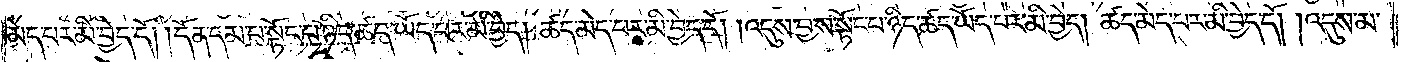མེད་པར་མི་བྱེད་དོ། །དོན་དམ་པ་སྟོང་པ་ཉིད་ཚད་ཡོད་པར་མི་བྱེད། ཚད་མེད་པར་མི་བྱེད་དོ། །འདུས་བྱས་སྟོང་པ་ཉིད་ཚད་ཡོད་པར་མི་བྱེད། ཚད་མེད་པར་མི་བྱེད་དོ། །འདུས་མ་
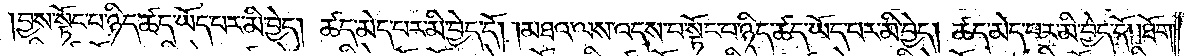བྱས་སྟོང་པ་ཉིད་ཚད་ཡོད་པར་མི་བྱེད། ཚད་མེད་པར་མི་བྱེད་དོ། །མཐའ་ལས་འདས་པ་སྟོང་པ་ཉིད་ཚད་ཡོད་པར་མི་བྱེད། ཚད་མེད་པར་མི་བྱེད་དོ། །ཐོག་
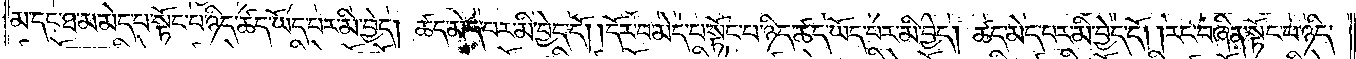མ་དང་ཐ་མ་མེད་པ་སྟོང་པ་ཉིད་ཚད་ཡོད་པར་མི་བྱེད། ཚད་མེད་པར་མི་བྱེད་དོ། །དོར་བ་མེད་པ་སྟོང་པ་ཉིད་ཚད་ཡོད་པར་མི་བྱེད། ཚད་མེད་པར་མི་བྱེད་དོ། །རང་བཞིན་སྟོང་པ་ཉིད་
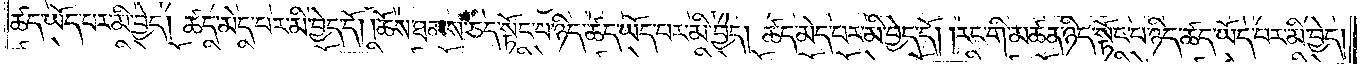ཚད་ཡོད་པར་མི་བྱེད། ཚད་མེད་པར་མི་བྱེད་དོ། །ཆོས་ཐམས་ཅད་སྟོང་པ་ཉིད་ཚད་ཡོད་པར་མི་བྱེད། ཚད་མེད་པར་མི་བྱེད་དོ། །རང་གི་མཚན་ཉིད་སྟོང་པ་ཉིད་ཚད་ཡོད་པར་མི་བྱེད།
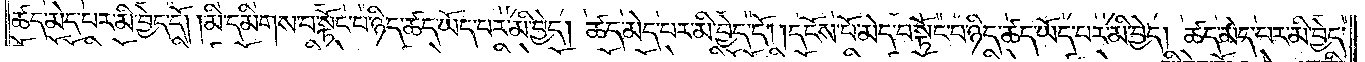ཚད་མེད་པར་མི་བྱེད་དོ། །མི་དམིགས་པ་སྟོང་པ་ཉིད་ཚད་ཡོད་པར་མི་བྱེད། ཚད་མེད་པར་མི་བྱེད་དོ། །དངོས་པོ་མེད་པ་སྟོང་པ་ཉིད་ཚད་ཡོད་པར་མི་བྱེད། ཚད་མེད་པར་མི་བྱེད་
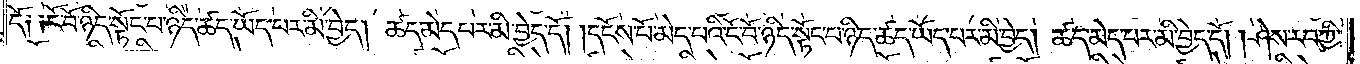དོ༑ ༑ངོ་བོ་ཉིད་སྟོང་པ་ཉིད་ཚད་ཡོད་པར་མི་བྱེད། ཚད་མེད་པར་མི་བྱེད་དོ། །དངོས་པོ་མེད་པའི་ངོ་བོ་ཉིད་སྟོང་པ་ཉིད་ཚད་ཡོད་པར་མི་བྱེད། ཚད་མེད་པར་མི་བྱེད་དོ། །ཤེས་རབ་ཀྱི་
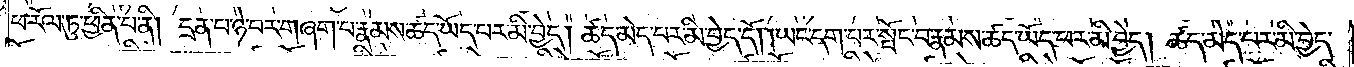ཕ་རོལ་ཏུ་ཕྱིན་པ་ནི། དྲན་པ་ཉེ་བར་གཞག་པ་རྣམས་ཚད་ཡོད་པར་མི་བྱེད། ཚད་མེད་པར་མི་བྱེད་དོ། །ཡང་དག་པར་སྤོང་བ་རྣམས་ཚད་ཡོད་པར་མི་བྱེད། ཚད་མེད་པར་མི་བྱེད་
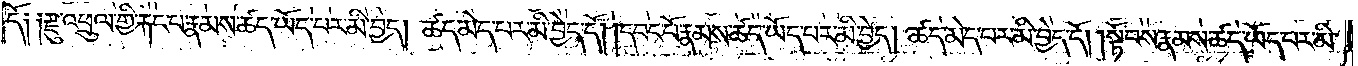དོ༑ ༑རྫུ་འཕྲུལ་གྱི་རྐང་པ་རྣམས་ཚད་ཡོད་པར་མི་བྱེད། ཚད་མེད་པར་མི་བྱེད་དོ། །དབང་པོ་རྣམས་ཚད་ཡོད་པར་མི་བྱེད། ཚད་མེད་པར་མི་བྱེད་དོ། །སྟོབས་རྣམས་ཚད་ཡོད་པར་མི་
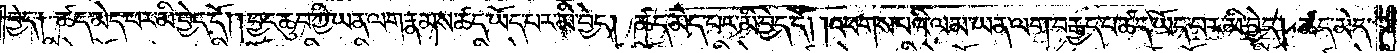བྱེད༑ ཚད་མེད་པར་མི་བྱེད་དོ། །བྱང་ཆུབ་ཀྱི་ཡན་ལག་རྣམས་ཚད་ཡོད་པར་མི་བྱེད། ཚད་མེད་པར་མི་བྱེད་དོ། །འཕགས་པའི་ལམ་ཡན་ལག་བརྒྱད་པ་ཚད་ཡོད་པར་མི་བྱེད། ཚད་མེད་
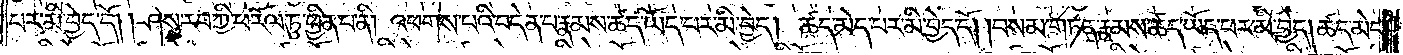པར་མི་བྱེད་དོ། །ཤེས་རབ་ཀྱི་ཕ་རོལ་ཏུ་ཕྱིན་པ་ནི། འཕགས་པའི་བདེན་པ་རྣམས་ཚད་ཡོད་པར་མི་བྱེད། ཚད་མེད་པར་མི་བྱེད་དོ། །བསམ་གཏན་རྣམས་ཚད་ཡོད་པར་མི་བྱེད། ཚད་མེད་
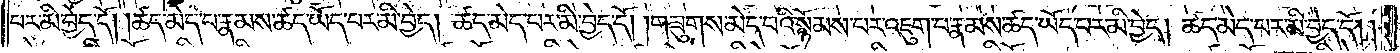པར་མི་བྱེད་དོ། །ཚད་མེད་པ་རྣམས་ཚད་ཡོད་པར་མི་བྱེད། ཚད་མེད་པར་མི་བྱེད་དོ། །གཟུགས་མེད་པའི་སྙོམས་པར་འཇུག་པ་རྣམས་ཚད་ཡོད་པར་མི་བྱེད། ཚད་མེད་པར་མི་བྱེད་དོ། །
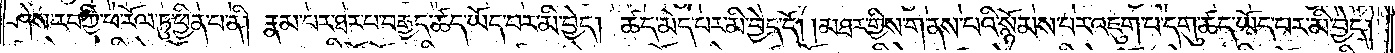ཤེས་རབ་ཀྱི་ཕ་རོལ་ཏུ་ཕྱིན་པ་ནི། རྣམ་པར་ཐར་པ་བརྒྱད་ཚད་ཡོད་པར་མི་བྱེད། ཚད་མེད་པར་མི་བྱེད་དོ། །མཐར་གྱིས་གནས་པའི་སྙོམས་པར་འཇུག་པ་དགུ་ཚད་ཡོད་པར་མི་བྱེད།
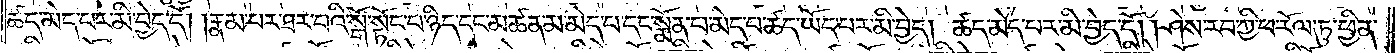ཚད་མེད་པར་མི་བྱེད་དོ། །རྣམ་པར་ཐར་པའི་སྒོ་སྟོང་པ་ཉིད་དང་མཚན་མ་མེད་པ་དང་སྨོན་པ་མེད་པ་ཚད་ཡོད་པར་མི་བྱེད། ཚད་མེད་པར་མི་བྱེད་དོ། །ཤེས་རབ་ཀྱི་ཕ་རོལ་ཏུ་ཕྱིན་
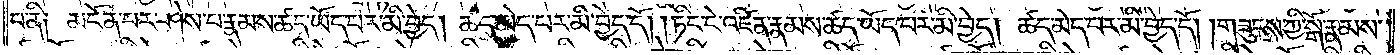པ་ནི༑ མངོན་པར་ཤེས་པ་རྣམས་ཚད་ཡོད་པར་མི་བྱེད། ཚད་མེད་པར་མི་བྱེད་དོ། །ཏིང་ངེ་འཛིན་རྣམས་ཚད་ཡོད་པར་མི་བྱེད། ཚད་མེད་པར་མི་བྱེད་དོ། །གཟུངས་ཀྱི་སྒོ་རྣམས་
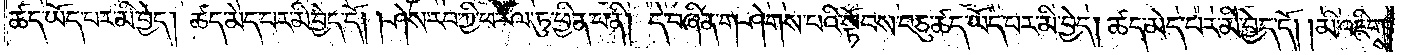ཚད་ཡོད་པར་མི་བྱེད། ཚད་མེད་པར་མི་བྱེད་དོ། །ཤེས་རབ་ཀྱི་ཕ་རོལ་ཏུ་ཕྱིན་པ་ནི། དེ་བཞིན་གཤེགས་པའི་སྟོབས་བཅུ་ཚད་ཡོད་པར་མི་བྱེད། ཚད་མེད་པར་མི་བྱེད་དོ། །མི་འཇིགས་
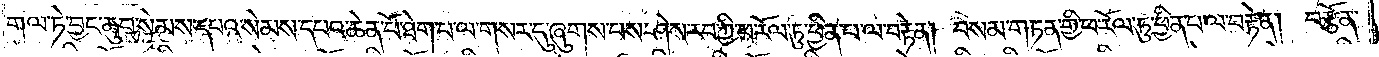གལ་ཏེ་བྱང་ཆུབ་སེམས་དཔའ་སེམས་དཔའ་ཆེན་པོ་ཐེག་པ་ལ་གསར་དུ་ཞུགས་པས་ཤེས་རབ་ཀྱི་ཕ་རོལ་ཏུ་ཕྱིན་པ་ལ་བརྟེན། བསམ་གཏན་གྱི་ཕ་རོལ་ཏུ་ཕྱིན་པ་ལ་བརྟེན། བརྩོན་
